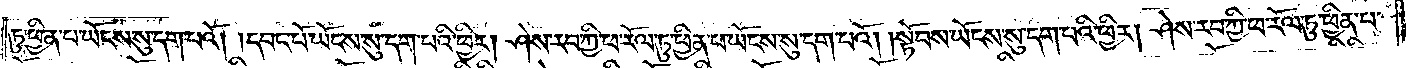ཏུ་ཕྱིན་པ་ཡོངས་སུ་དག་པའོ། །དབང་པོ་ཡོངས་སུ་དག་པའི་ཕྱིར། ཤེས་རབ་ཀྱི་ཕ་རོལ་ཏུ་ཕྱིན་པ་ཡོངས་སུ་དག་པའོ། །སྟོབས་ཡོངས་སུ་དག་པའི་ཕྱིར། ཤེས་རབ་ཀྱི་ཕ་རོལ་ཏུ་ཕྱིན་པ་
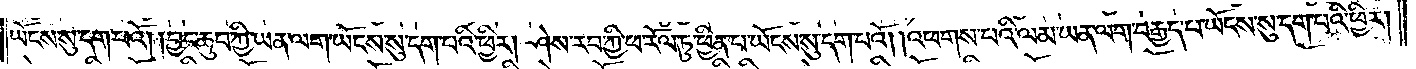ཡོངས་སུ་དག་པའོ། །བྱང་ཆུབ་ཀྱི་ཡན་ལག་ཡོངས་སུ་དག་པའི་ཕྱིར། ཤེས་རབ་ཀྱི་ཕ་རོལ་ཏུ་ཕྱིན་པ་ཡོངས་སུ་དག་པའོ། །འཕགས་པའི་ལམ་ཡན་ལག་བརྒྱད་པ་ཡོངས་སུ་དག་པའི་ཕྱིར།
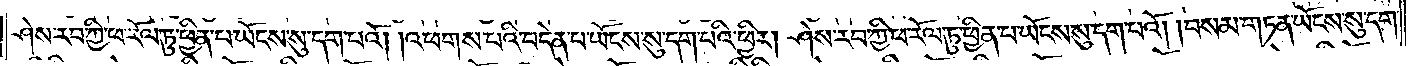ཤེས་རབ་ཀྱི་ཕ་རོལ་ཏུ་ཕྱིན་པ་ཡོངས་སུ་དག་པའོ། །འཕགས་པའི་བདེན་པ་ཡོངས་སུ་དག་པའི་ཕྱིར། ཤེས་རབ་ཀྱི་ཕ་རོལ་ཏུ་ཕྱིན་པ་ཡོངས་སུ་དག་པའོ། །བསམ་གཏན་ཡོངས་སུ་དག་
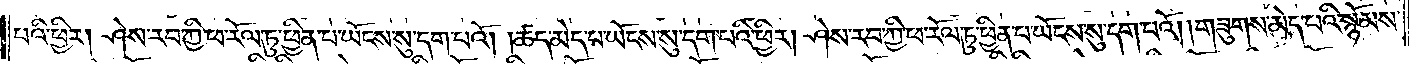པའི་ཕྱིར། ཤེས་རབ་ཀྱི་ཕ་རོལ་ཏུ་ཕྱིན་པ་ཡོངས་སུ་དག་པའོ། །ཚད་མེད་པ་ཡོངས་སུ་དག་པའི་ཕྱིར། ཤེས་རབ་ཀྱི་ཕ་རོལ་ཏུ་ཕྱིན་པ་ཡོངས་སུ་དག་པའོ། །གཟུགས་མེད་པའི་སྙོམས་
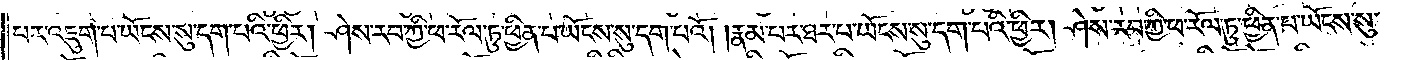པར་འཇུག་པ་ཡོངས་སུ་དག་པའི་ཕྱིར། ཤེས་རབ་ཀྱི་ཕ་རོལ་ཏུ་ཕྱིན་པ་ཡོངས་སུ་དག་པའོ། །རྣམ་པར་ཐར་པ་ཡོངས་སུ་དག་པའི་ཕྱིར། ཤེས་རབ་ཀྱི་ཕ་རོལ་ཏུ་ཕྱིན་པ་ཡོངས་སུ་
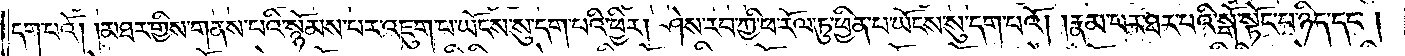དག་པའོ། །མཐར་གྱིས་གནས་པའི་སྙོམས་པར་འཇུག་པ་ཡོངས་སུ་དག་པའི་ཕྱིར། ཤེས་རབ་ཀྱི་ཕ་རོལ་ཏུ་ཕྱིན་པ་ཡོངས་སུ་དག་པའོ། །རྣམ་པར་ཐར་པའི་སྒོ་སྟོང་པ་ཉིད་དང༌།
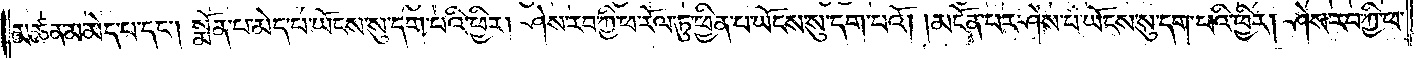མཚན་མ་མེད་པ་དང༌། སྨོན་པ་མེད་པ་ཡོངས་སུ་དག་པའི་ཕྱིར། ཤེས་རབ་ཀྱི་ཕ་རོལ་ཏུ་ཕྱིན་པ་ཡོངས་སུ་དག་པའོ། །མངོན་པར་ཤེས་པ་ཡོངས་སུ་དག་པའི་ཕྱིར། ཤེས་རབ་ཀྱི་ཕ་
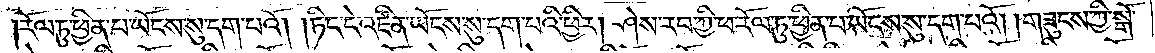རོལ་ཏུ་ཕྱིན་པ་ཡོངས་སུ་དག་པའོ། །ཏིང་ངེ་འཛིན་ཡོངས་སུ་དག་པའི་ཕྱིར། ཤེས་རབ་ཀྱི་ཕ་རོལ་ཏུ་ཕྱིན་པ་ཡོངས་སུ་དག་པའོ། །གཟུངས་ཀྱི་སྒོ་
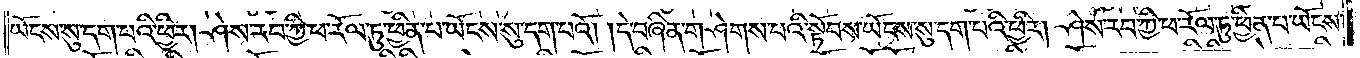ཡོངས་སུ་དག་པའི་ཕྱིར། ཤེས་རབ་ཀྱི་ཕ་རོལ་ཏུ་ཕྱིན་པ་ཡོངས་སུ་དག་པའོ། །དེ་བཞིན་གཤེགས་པའི་སྟོབས་ཡོངས་སུ་དག་པའི་ཕྱིར། ཤེས་རབ་ཀྱི་ཕ་རོལ་ཏུ་ཕྱིན་པ་ཡོངས་
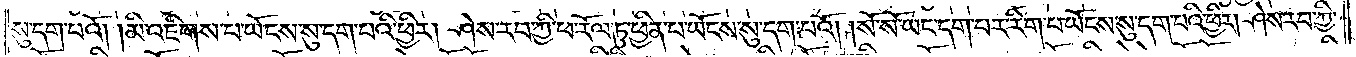སུ་དག་པའོ། །མི་འཇིགས་པ་ཡོངས་སུ་དག་པའི་ཕྱིར། ཤེས་རབ་ཀྱི་ཕ་རོལ་ཏུ་ཕྱིན་པ་ཡོངས་སུ་དག་པའོ། །སོ་སོ་ཡང་དག་པར་རིག་པ་ཡོངས་སུ་དག་པའི་ཕྱིར། ཤེས་རབ་ཀྱི་
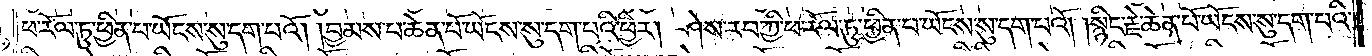ཕ་རོལ་ཏུ་ཕྱིན་པ་ཡོངས་སུ་དག་པའོ། །བྱམས་པ་ཆེན་པོ་ཡོངས་སུ་དག་པའི་ཕྱིར། ཤེས་རབ་ཀྱི་ཕ་རོལ་ཏུ་ཕྱིན་པ་ཡོངས་སུ་དག་པའོ། །སྙིང་རྗེ་ཆེན་པོ་ཡོངས་སུ་དག་པའི་
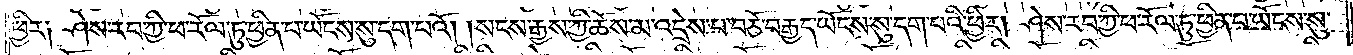ཕྱིར༑ ཤེས་རབ་ཀྱི་ཕ་རོལ་ཏུ་ཕྱིན་པ་ཡོངས་སུ་དག་པའོ། །སངས་རྒྱས་ཀྱི་ཆོས་མ་འདྲེས་པ་བཅོ་བརྒྱད་ཡོངས་སུ་དག་པའི་ཕྱིར། ཤེས་རབ་ཀྱི་ཕ་རོལ་ཏུ་ཕྱིན་པ་ཡོངས་སུ་
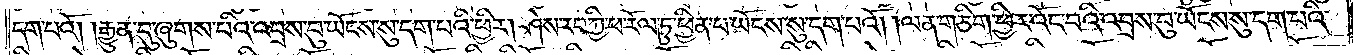དག་པའོ། །རྒྱུན་དུ་ཞུགས་པའི་འབྲས་བུ་ཡོངས་སུ་དག་པའི་ཕྱིར། ཤེས་རབ་ཀྱི་ཕ་རོལ་ཏུ་ཕྱིན་པ་ཡོངས་སུ་དག་པའོ། །ལན་གཅིག་ཕྱིར་འོང་བའི་འབྲས་བུ་ཡོངས་སུ་དག་པའི་
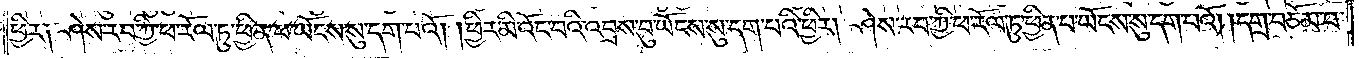ཕྱིར༑ ཤེས་རབ་ཀྱི་ཕ་རོལ་ཏུ་ཕྱིན་པ་ཡོངས་སུ་དག་པའོ། །ཕྱིར་མི་འོང་བའི་འབྲས་བུ་ཡོངས་སུ་དག་པའི་ཕྱིར། ཤེས་རབ་ཀྱི་ཕ་རོལ་ཏུ་ཕྱིན་པ་ཡོངས་སུ་དག་པའོ། །དགྲ་བཅོམ་པ་
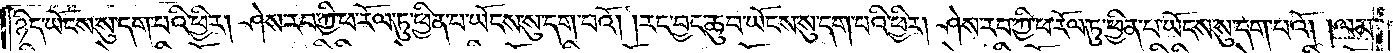ཉིད་ཡོངས་སུ་དག་པའི་ཕྱིར། ཤེས་རབ་ཀྱི་ཕ་རོལ་ཏུ་ཕྱིན་པ་ཡོངས་སུ་དག་པའོ། །རང་བྱང་ཆུབ་ཡོངས་སུ་དག་པའི་ཕྱིར། ཤེས་རབ་ཀྱི་ཕ་རོལ་ཏུ་ཕྱིན་པ་ཡོངས་སུ་དག་པའོ། །ལམ་
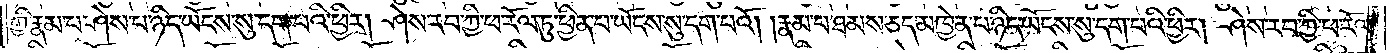གྱི་རྣམ་པ་ཤེས་པ་ཉིད་ཡོངས་སུ་དག་པའི་ཕྱིར། ཤེས་རབ་ཀྱི་ཕ་རོལ་ཏུ་ཕྱིན་པ་ཡོངས་སུ་དག་པའོ། །རྣམ་པ་ཐམས་ཅད་མཁྱེན་པ་ཉིད་ཡོངས་སུ་དག་པའི་ཕྱིར། ཤེས་རབ་ཀྱི་ཕ་རོལ་
